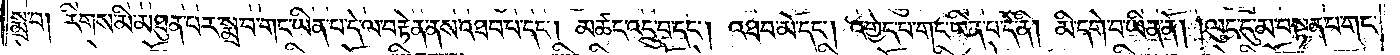སྨྲ་བ། རིགས་མི་མཐུན་པར་སྨྲ་བ་གང་ཡིན་པ་དེ་ལ་བརྟེན་ནས་འཐབ་པ་དང༌། མཚང་འདྲུ་བ་དང༌། འཐབ་མོ་དང༌། འགྱེད་པ་གང་ཡིན་པ་དེ་ནི། མི་དགེ་བ་ཡིན་ནོ། །ལུང་དུ་མ་བསྟན་པ་གང་
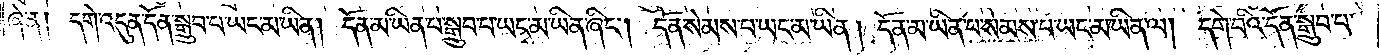ཞེ་ན། དགེ་འདུན་དོན་སྒྲུབ་པ་ཡང་མ་ཡིན། དོན་མ་ཡིན་པ་སྒྲུབ་པ་ཡང་མ་ཡིན་ཞིང༌། དོན་སེམས་པ་ཡང་མ་ཡིན། དོན་མ་ཡིན་པ་སེམས་པ་ཡང་མ་ཡིན་ལ། དགེ་བའི་དོན་སྒྲུབ་པ་
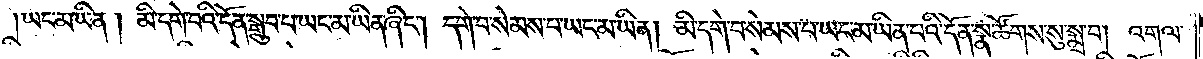།ཡང་མ་ཡིན། མི་དགེ་བའི་དོན་སྒྲུབ་པ་ཡང་མ་ཡིན་ཞིང༌། དགེ་བ་སེམས་པ་ཡང་མ་ཡིན། མི་དགེ་བ་སེམས་པ་ཡང་མ་ཡིན་པའི་དོན་སྣ་ཚོགས་སུ་སྨྲ་བ། འགལ་
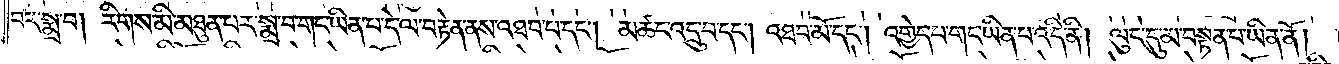བར་སྨྲ་བ། རིགས་མི་མཐུན་པར་སྨྲ་བ་གང་ཡིན་པ་དེ་ལ་བརྟེན་ནས་འཐབ་པ་དང༌། མཚང་འདྲུ་བ་དང༌། འཐབ་མོ་དང༌། འགྱེད་པ་གང་ཡིན་པ་འདི་ནི། ལུང་དུ་མ་བསྟན་པ་ཡིན་ནོ། །
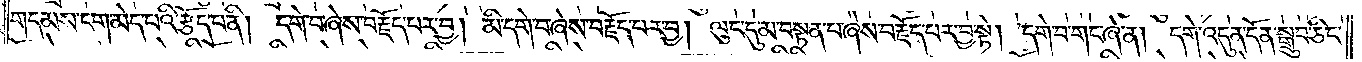གདམས་ངག་མེད་པའི་རྩོད་པ་ནི། དགེ་བ་ཞེས་བརྗོད་པར་བྱ། མི་དགེ་བ་ཞེས་བརྗོད་པར་བྱ། ལུང་དུ་མ་བསྟན་པ་ཞེས་བརྗོད་པར་བྱ་སྟེ། དགེ་བ་གང་ཞེ་ན། དགེ་འདུན་དོན་སྒྲུབ་ཅིང་
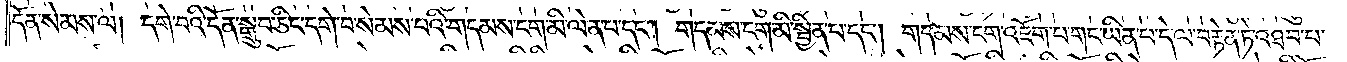དོན་སེམས་ལ། དགེ་བའི་དོན་སྒྲུབ་ཅིང་དགེ་བ་སེམས་པའི་གདམས་ངག་མི་ལེན་པ་དང༌། གདམས་ངག་མི་སྦྱིན་པ་དང༌། གདམས་ངག་འཇོག་པ་གང་ཡིན་པ་དེ་ལ་བརྟེན་ཏེ་འཐབ་པ་
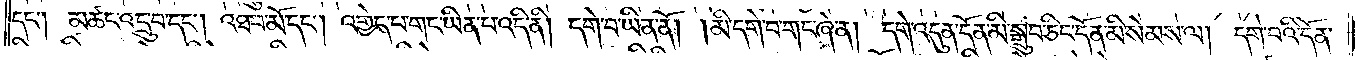དང༌། མཚང་འདྲུ་བ་དང༌། འཐབ་མོ་དང༌། འགྱེད་པ་གང་ཡིན་པ་འདི་ནི། དགེ་བ་ཡིན་ནོ། །མི་དགེ་བ་གང་ཞེ་ན། དགེ་འདུན་དོན་མི་སྒྲུབ་ཅིང་དོན་མི་སེམས་ལ། དགེ་བའི་དོན་
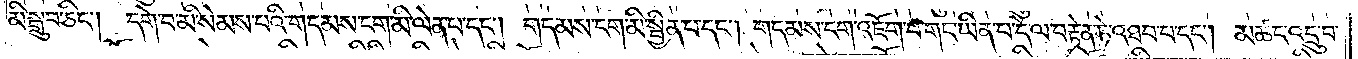མི་སྒྲུབ་ཅིང༌། དགེ་བ་མི་སེམས་པའི་གདམས་ངག་མི་ལེན་པ་དང༌། གདམས་ངག་མི་སྦྱིན་པ་དང༌། གདམས་ངག་འཇོག་པ་གང་ཡིན་པ་དེ་ལ་བརྟེན་ཏེ་འཐབ་པ་དང༌། མཚང་འདྲུ་བ་
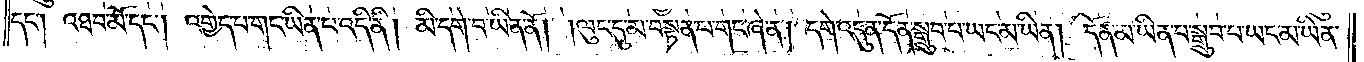དང༌། འཐབ་མོ་དང༌། འགྱེད་པ་གང་ཡིན་པ་འདི་ནི། མི་དགེ་བ་ཡིན་ནོ། །ལུང་དུ་མ་བསྟན་པ་གང་ཞེ་ན། དགེ་འདུན་དོན་སྒྲུབ་པ་ཡང་མ་ཡིན། དོན་མ་ཡིན་པ་སྒྲུབ་པ་ཡང་མ་ཡིན་
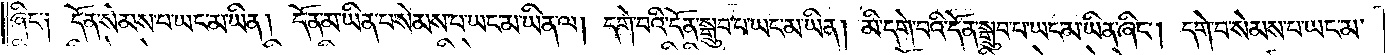ཞིང༌། དོན་སེམས་པ་ཡང་མ་ཡིན། དོན་མ་ཡིན་པ་སེམས་པ་ཡང་མ་ཡིན་ལ། དགེ་བའི་དོན་སྒྲུབ་པ་ཡང་མ་ཡིན། མི་དགེ་བའི་དོན་སྒྲུབ་པ་ཡང་མ་ཡིན་ཞིང༌། དགེ་བ་སེམས་པ་ཡང་མ་
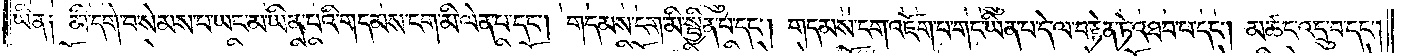ཡིན༑ མི་དགེ་བ་སེམས་པ་ཡང་མ་ཡིན་པའི་གདམས་ངག་མི་ལེན་པ་དང༌། གདམས་ངག་མི་སྦྱིན་པ་དང༌། གདམས་ངག་འཇོག་པ་གང་ཡིན་པ་དེ་ལ་བརྟེན་ཏེ་འཐབ་པ་དང༌། མཚང་འདྲུ་བ་དང༌།
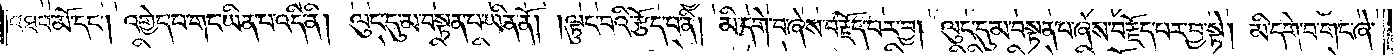འཐབ་མོ་དང༌། འགྱེད་པ་གང་ཡིན་པ་འདི་ནི། ལུང་དུ་མ་བསྟན་པ་ཡིན་ནོ། །ལྟུང་བའི་རྩོད་པ་ནི། མི་དགེ་བ་ཞེས་བརྗོད་པར་བྱ། ལུང་དུ་མ་བསྟན་པ་ཞེས་བརྗོད་པར་བྱ་སྟེ། མི་དགེ་བ་གང་ཞེ་
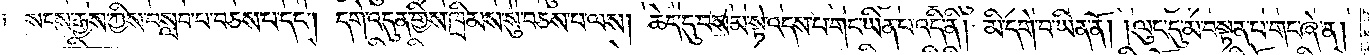ན༑ སངས་རྒྱས་ཀྱིས་བསླབ་པ་བཅས་པ་དང༌། དགེ་འདུན་གྱིས་ཁྲིམས་སུ་བཅས་པ་ལས། ཆེད་དུ་བསམ་སྟེ་འདས་པ་གང་ཡིན་པ་འདི་ནི། མི་དགེ་བ་ཡིན་ནོ། །ལུང་དུ་མ་བསྟན་པ་གང་ཞེ་ན།
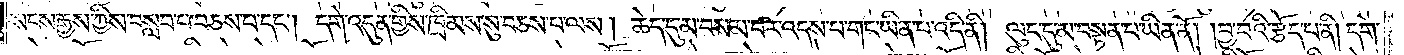སངས་རྒྱས་ཀྱིས་བསླབ་པ་བཅས་པ་དང༌། དགེ་འདུན་གྱིས་ཁྲིམས་སུ་བཅས་པ་ལས། ཆེད་དུ་མ་བསམ་པར་འདས་པ་གང་ཡིན་པ་འདི་ནི། ལུང་དུ་མ་བསྟན་པ་ཡིན་ནོ། །བྱ་བའི་རྩོད་པ་ནི། དགེ་
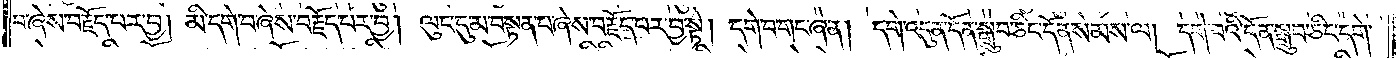བ་ཞེས་བརྗོད་པར་བྱ། མི་དགེ་བ་ཞེས་བརྗོད་པར་བྱ། ལུང་དུ་མ་བསྟན་པ་ཞེས་བརྗོད་པར་བྱ་སྟེ། དགེ་བ་གང་ཞེ་ན། དགེ་འདུན་དོན་སྒྲུབ་ཅིང་དོན་སེམས་ལ། དགེ་བའི་དོན་སྒྲུབ་ཅིང་དགེ་
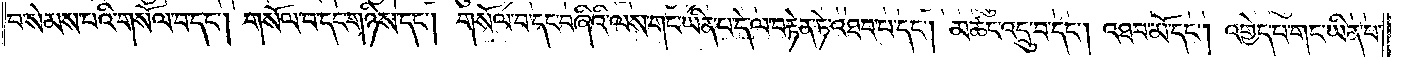བ་སེམས་པའི་གསོལ་བ་དང༌། གསོལ་བ་དང་གཉིས་དང༌། གསོལ་བ་དང་བཞིའི་ལས་གང་ཡིན་པ་དེ་ལ་བརྟེན་ཏེ་འཐབ་པ་དང༌། མཚང་འདྲུ་བ་དང༌། འཐབ་མོ་དང༌། འགྱེད་པ་གང་ཡིན་པ་
